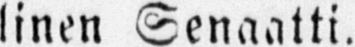linen Senaatti.
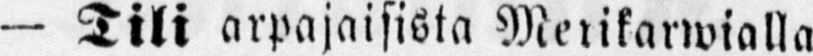— Tili arpajaisista Merikarwialla
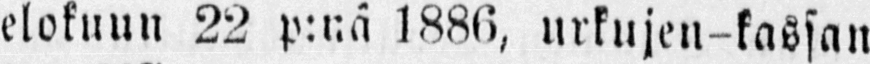elokuun 22 p:nä 1886, urkujen-kassan
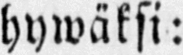hywäksi:
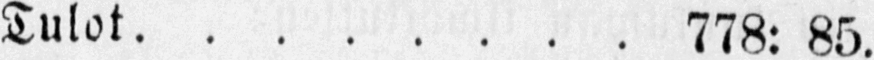Tulot 778: 85.
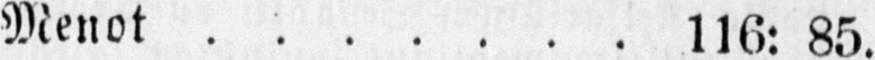Menot 116: 85.
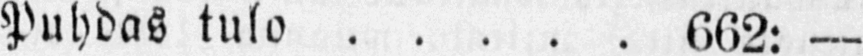Puhdas tulo 662: --
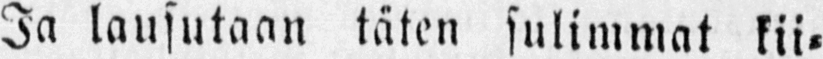ja lausutaan täten sulimmat kii-
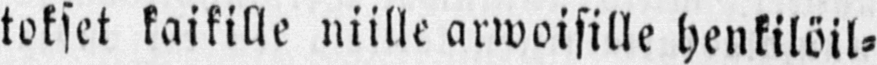tokset kaikille niille arwoisille henkilöil-
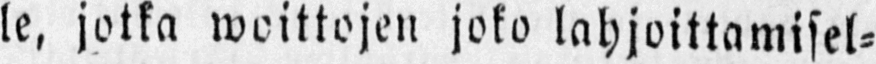le, jotka woittojen joko lahjoittamisel-
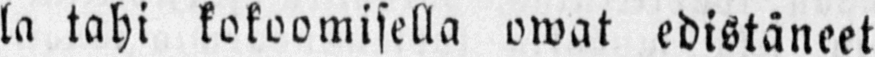la tahi kokoomisella owat edistäneet
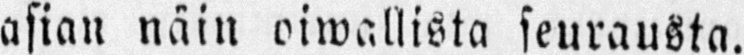asian näin oiwallista seurausta.
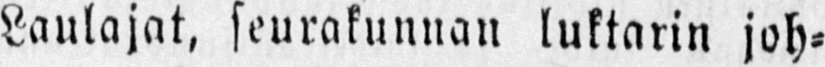Laulajat, seurakunnan luktarin joh-
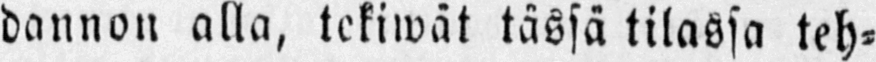dannon alla, tekiwät tässä tilassa teh-
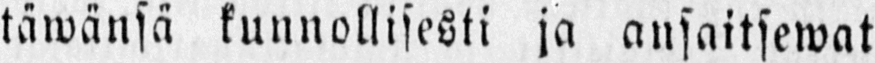täwänsä kunnollisesti ja ansaitsewat
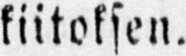kiitoksen.
